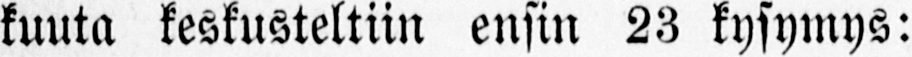kuuta keskusteltiin ensin 23 kysymys:
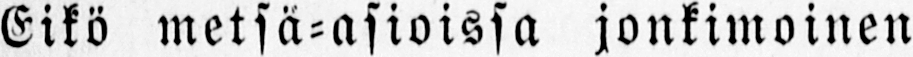Eikö metsä-asioissa jonkimoinen
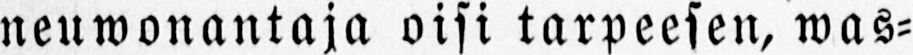nenwonantaja oisi tarpeesen, was-
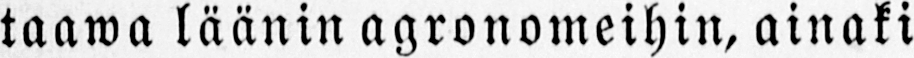taawa läänin agronomeihin, ainaki
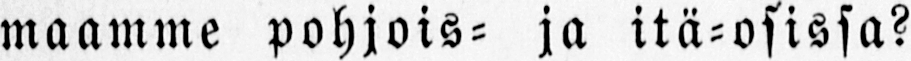maamme Pohjois- ja itä-osissa?
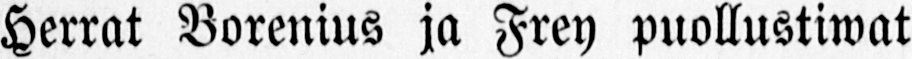Herrat Borenius ja Frey puollustiwat
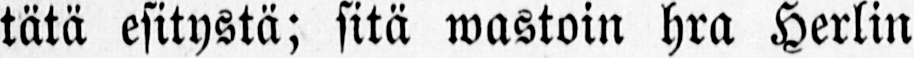tätä esitystä; sitä wastoin hra Herlin
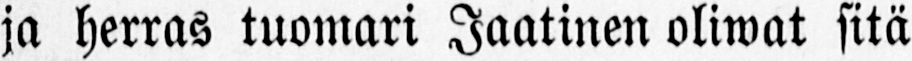ja herras tuomari Jaatinen oliwat sitä
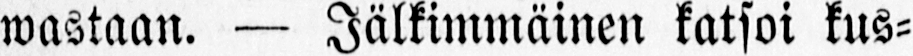wastaan. — Jälkimmäinen katsoi kus-
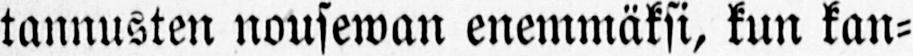tannusten nousewan enemmäksi, kun kan-
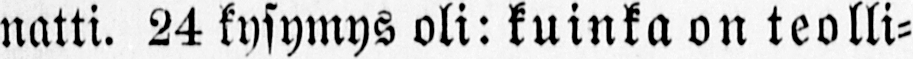natti. 24 kysymys oli: kuinka on teolli-
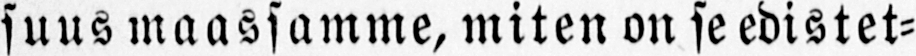suus maassamme, miten on se edistet-
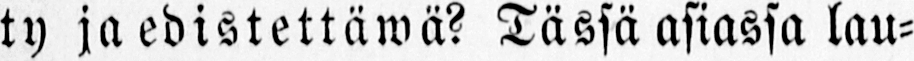ty ja edistettäwä? Tässä asiassa lau-
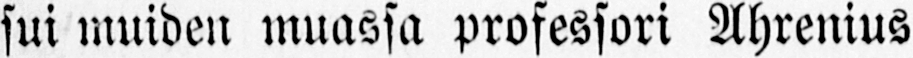sui muiden muassa professori Ahrenius
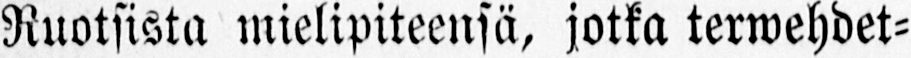Ruotsista mielipiteensä, jotka terwehdet-
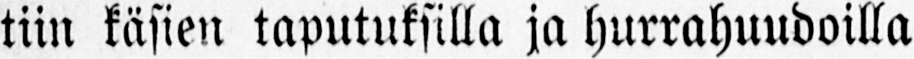tiin käsien taputuksilla ja hurrahuudoilla
